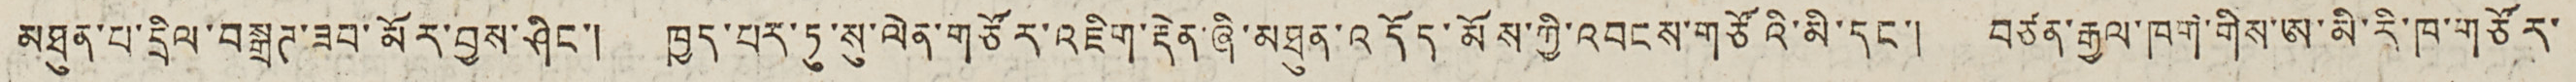མཐུན་པ་དྲིལ་བསྒྲཊ་ཟབ་མོར་བྱས་ཤིང་། ཁྱད་པར་ཏུ་སུ་ལེན་གཙོར་འཇིག་རྡེན་ཞི་མཐུན་འདོད་མོས་ཀྱི་འབངས་གཙོའི་མི་དང་། བཙན་རྒྱལ་ཁག་གིས་ཨ་མི་རི་ཁ་གཙོར་
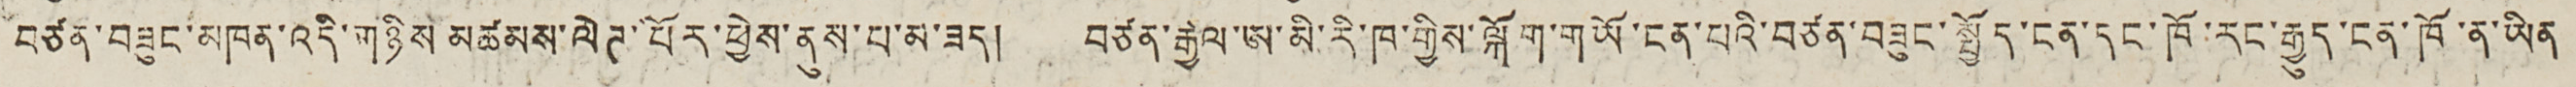བཙན་བཟུང་མཁན་འདི་གཉིས་མཚམས་ལེཊ་པོར་ཕྱེས་ནུས་པ་མ་ཟད། བཙན་རྒྱལ་ཨ་མི་རི་ཁ་གྱིས་ལྐོག་གཡོ་ངན་པའི་བཙན་བཟུང་སྤྱོད་ངན་དང་ཁོ་རང་རྒྱུད་ངན་ཁོ་ན་ཡིན
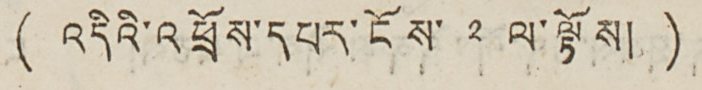( འདིའི་འཕྲོས་དཔར་ངོས་ ༢ ལ་ལྟོས། )
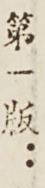第一版：
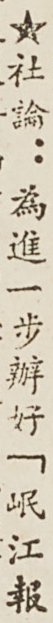★社論：爲進一步辦好「岷江報
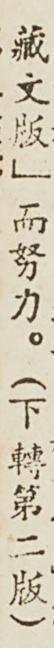藏文版」而努力。（下轉第二版）
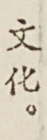文化。
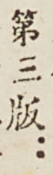第三版：
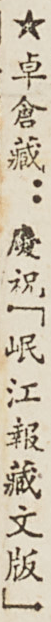★卓倉藏：慶祝「岷江報藏文版」
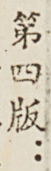第四版：
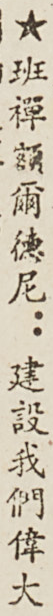★班禪額爾德尼：建設我們偉大
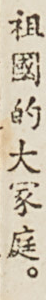祖國的大家庭。
